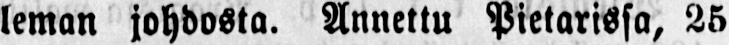leman johdosta. Annettu Pietarissa, 25
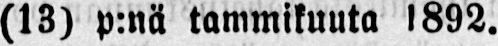(13) p:nä tammikuuta 1892.
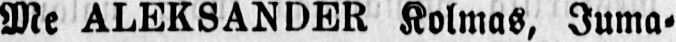Me ALEKSANDER Kolmas, Juma-
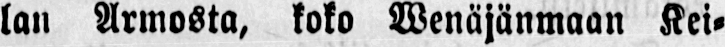lan Armosta, koko Wenäjänmaan Kei-
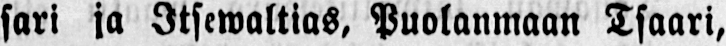sari ja Itsewaltias, Puolanmaan Tsaari,
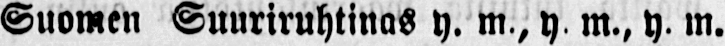Suomen Suuriruhtinas y. m.,y m.,y. m.
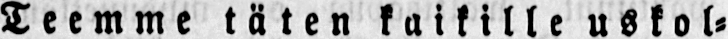Teemme täten kaikille uskol-
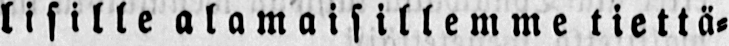lisille alamaisillemme tiettö-
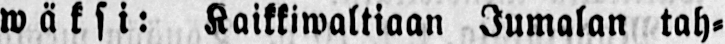wäksi: Kaikkiwaltiaan Jumalan tah-
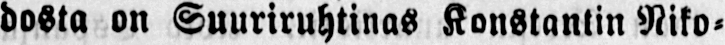dosta on Suuriruhtinas Konstantin Niko-
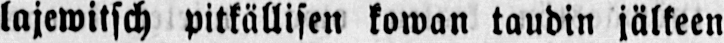lajewitsch pitkällisen kowan taudin jälkeen
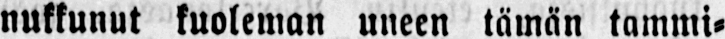nukkunut kuoleman uneen tämän tammi-
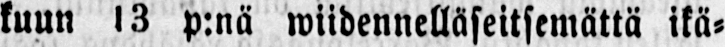kuun 13 p:nä wiidennelläseitsemättä ikä-
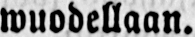wuodellaan.
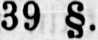39 §.
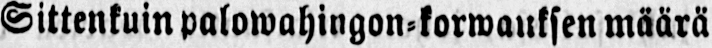Sittenkuin palowahingon-korwauksen määrä
